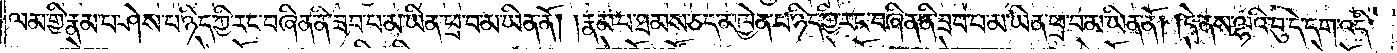ལམ་གྱི་རྣམ་པ་ཤེས་པ་ཉིད་ཀྱི་རང་བཞིན་ནི་ཟབ་པ་མ་ཡིན་ཕྲ་བ་མ་ཡིན་ནོ། །རྣམ་པ་ཐམས་ཅད་མཁྱེན་པ་ཉིད་ཀྱི་རང་བཞིན་ནི་ཟབ་པ་མ་ཡིན་ཕྲ་བ་མ་ཡིན་ནོ། །དེ་ནས་ལྷའི་བུ་དེ་དག་འདི་
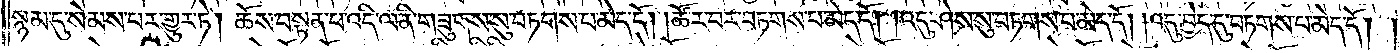སྙམ་དུ་སེམས་པར་གྱུར་ཏེ། ཆོས་བསྟན་པ་འདི་ལ་ནི་གཟུགས་སུ་བཏགས་པ་མེད་དོ། །ཚོར་བར་བཏགས་པ་མེད་དོ། །འདུ་ཤེས་སུ་བཏགས་པ་མེད་དོ། །འདུ་བྱེད་དུ་བཏགས་པ་མེད་དོ། །
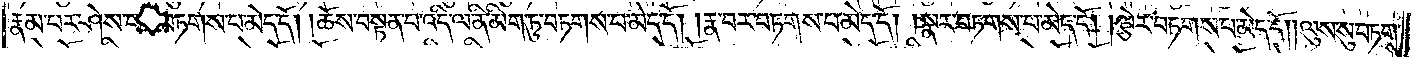རྣམ་པར་ཤེས་པར་བཏགས་པ་མེད་དོ། །ཆོས་བསྟན་པ་འདི་ལ་ནི་མིག་ཏུ་བཏགས་པ་མེད་དོ། །རྣ་བར་བཏགས་པ་མེད་དོ། །སྣར་བཏགས་པ་མེད་དོ། །ལྕེར་བཏགས་པ་མེད་དོ། །ལུས་སུ་བཏགས་
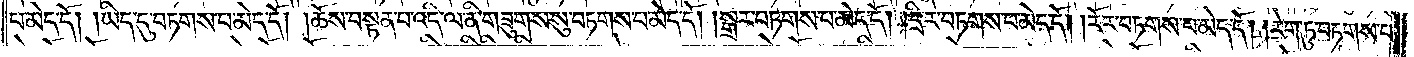པ་མེད་དོ། །ཡིད་དུ་བཏགས་པ་མེད་དོ། །ཆོས་བསྟན་པ་འདི་ལ་ནི་གཟུགས་སུ་བཏགས་པ་མེད་དོ། །སྒྲར་བཏགས་པ་མེད་དོ། །དྲིར་བཏགས་པ་མེད་དོ། །རོར་བཏགས་པ་མེད་དོ། །རེག་ཏུ་བཏགས་པ་
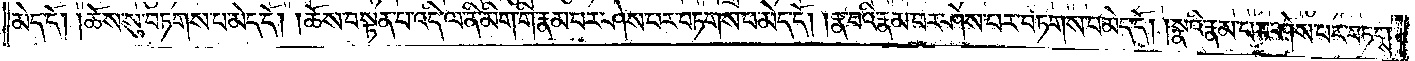མེད་དོ། །ཆོས་སུ་བཏགས་པ་མེད་དོ། །ཆོས་བསྟན་པ་འདི་ལ་ནི་མིག་གི་རྣམ་པར་ཤེས་པར་བཏགས་པ་མེད་དོ། །རྣ་བའི་རྣམ་པར་ཤེས་པར་བཏགས་པ་མེད་དོ། །སྣའི་རྣམ་པར་ཤེས་པར་བཏགས་
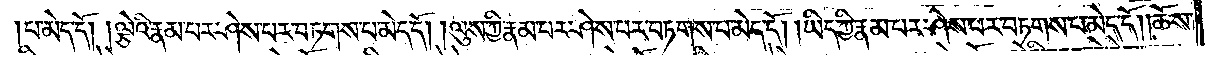པ་མེད་དོ། །ལྕེའི་རྣམ་པར་ཤེས་པར་བཏགས་པ་མེད་དོ། །ལུས་ཀྱི་རྣམ་པར་ཤེས་པར་བཏགས་པ་མེད་དོ། །ཡིད་ཀྱི་རྣམ་པར་ཤེས་པར་བཏགས་པ་མེད་དོ། །ཆོས་
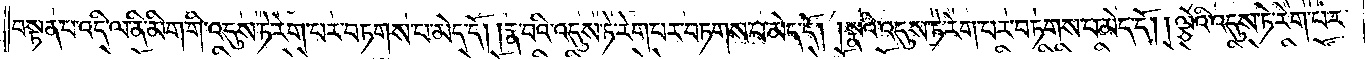བསྟན་པ་འདི་ལ་ནི་མིག་གི་འདུས་ཏེ་རེག་པར་བཏགས་པ་མེད་དོ། །རྣ་བའི་འདུས་ཏེ་རེག་པར་བཏགས་པ་མེད་དོ། །སྣའི་འདུས་ཏེ་རེག་པར་བཏགས་པ་མེད་དོ། །ལྕེའི་འདུས་ཏེ་རེག་པར་
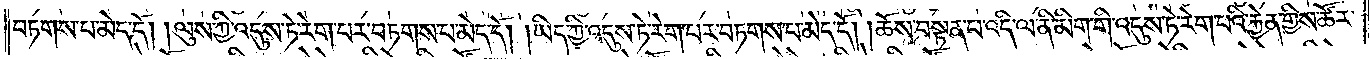བཏགས་པ་མེད་དོ། །ལུས་ཀྱི་འདུས་ཏེ་རེག་པར་བཏགས་པ་མེད་དོ། །ཡིད་ཀྱི་འདུས་ཏེ་རེག་པར་བཏགས་པ་མེད་དོ། །ཆོས་བསྟན་པ་འདི་ལ་ནི་མིག་གི་འདུས་ཏེ་རེག་པའི་རྐྱེན་གྱིས་ཚོར་
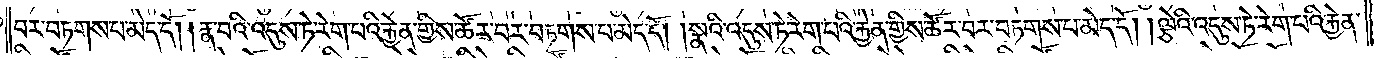བར་བཏགས་པ་མེད་དོ། །རྣ་བའི་འདུས་ཏེ་རེག་པའི་རྐྱེན་གྱིས་ཚོར་བར་བཏགས་པ་མེད་དོ། །སྣའི་འདུས་ཏེ་རེག་པའི་རྐྱེན་གྱིས་ཚོར་བར་བཏགས་པ་མེད་དོ། །ལྕེའི་འདུས་ཏེ་རེག་པའི་རྐྱེན་
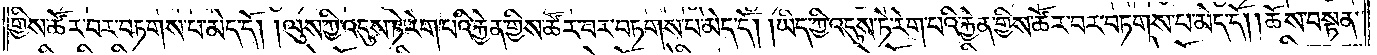གྱིས་ཚོར་བར་བཏགས་པ་མེད་དོ། །ལུས་ཀྱི་འདུས་ཏེ་རེག་པའི་རྐྱེན་གྱིས་ཚོར་བར་བཏགས་པ་མེད་དོ། །ཡིད་ཀྱི་འདུས་ཏེ་རེག་པའི་རྐྱེན་གྱིས་ཚོར་བར་བཏགས་པ་མེད་དོ། །ཆོས་བསྟན་
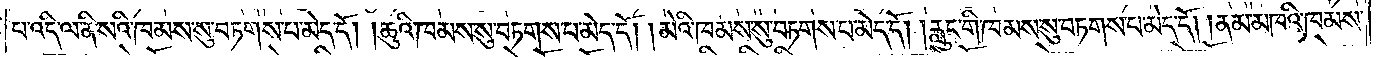པ་འདི་ལ་ནི་སའི་ཁམས་སུ་བཏགས་པ་མེད་དོ། །ཆུའི་ཁམས་སུ་བཏགས་པ་མེད་དོ། །མེའི་ཁམས་སུ་བཏགས་པ་མེད་དོ། །རླུང་གི་ཁམས་སུ་བཏགས་པ་མེད་དོ། །ནམ་མཁའི་ཁམས་
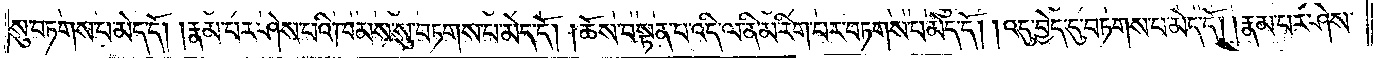སུ་བཏགས་པ་མེད་དོ། །རྣམ་པར་ཤེས་པའི་ཁམས་སུ་བཏགས་པ་མེད་དོ། །ཆོས་བསྟན་པ་འདི་ལ་ནི་མ་རིག་པར་བཏགས་པ་མེད་དོ། །འདུ་བྱེད་དུ་བཏགས་པ་མེད་དོ། །རྣམ་པར་ཤེས་
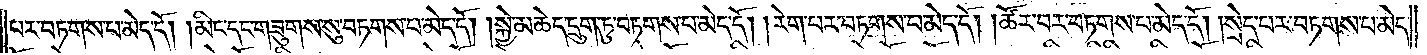པར་བཏགས་པ་མེད་དོ། །མིང་དང་གཟུགས་སུ་བཏགས་པ་མེད་དོ། །སྐྱེ་མཆེད་དྲུག་ཏུ་བཏགས་པ་མེད་དོ། །རེག་པར་བཏགས་པ་མེད་དོ། །ཚོར་བར་བཏགས་པ་མེད་དོ། །སྲེད་པར་བཏགས་པ་མེད་
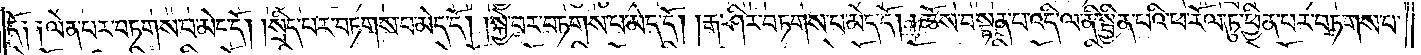དོ༏ ༏ལེན་པར་བཏགས་པ་མེད་དོ། །སྲིད་པར་བཏགས་པ་མེད་དོ། །སྐྱེ་བར་བཏགས་པ་མེད་དོ། །རྒ་ཤིར་བཏགས་པ་མེད་དོ། །ཆོས་བསྟན་པ་འདི་ལ་ནི་སྦྱིན་པའི་ཕ་རོལ་ཏུ་ཕྱིན་པར་བཏགས་པ་
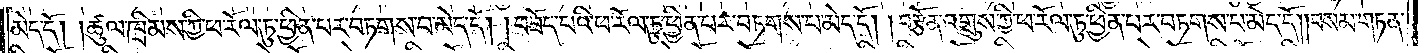མེད་དོ། །ཚུལ་ཁྲིམས་ཀྱི་ཕ་རོལ་ཏུ་ཕྱིན་པར་བཏགས་པ་མེད་དོ། །བཟོད་པའི་ཕ་རོལ་ཏུ་ཕྱིན་པར་བཏགས་པ་མེད་དོ། །བརྩོན་འགྲུས་ཀྱི་ཕ་རོལ་ཏུ་ཕྱིན་པར་བཏགས་པ་མེད་དོ། །བསམ་གཏན་
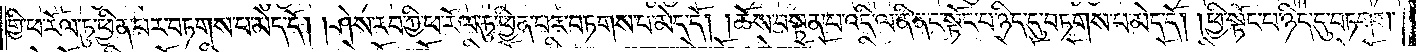གྱི་ཕ་རོལ་ཏུ་ཕྱིན་པར་བཏགས་པ་མེད་དོ། །ཤེས་རབ་ཀྱི་ཕ་རོལ་ཏུ་ཕྱིན་པར་བཏགས་པ་མེད་དོ། །ཆོས་བསྟན་པ་འདི་ལ་ནི་ནང་སྟོང་པ་ཉིད་དུ་བཏགས་པ་མེད་དོ། །ཕྱི་སྟོང་པ་ཉིད་དུ་བཏགས་
